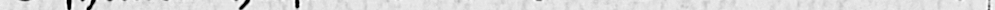Wuorituotteita:
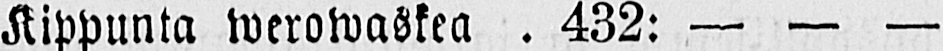Kippunta werowaskea . 432: — — —
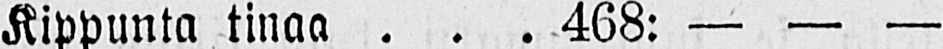Kippunta tinaa 468: — — —
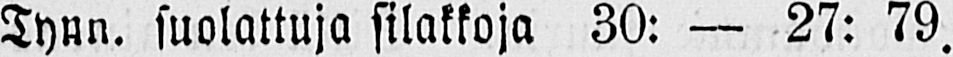Tynn. suolattuja silakkoja 30: — 27: 79.
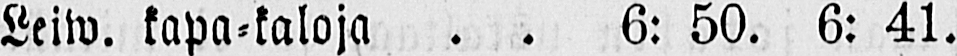Leiw. kapa-kaloja 6: 50. 6: 41.
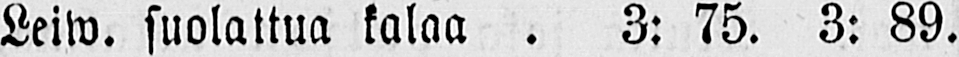Leiw. suolattua kalaa 3: 75. 3: 89.
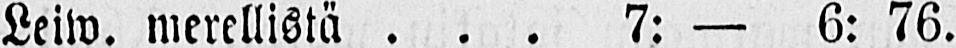Leiw. merellistä 7: — 6: 76.
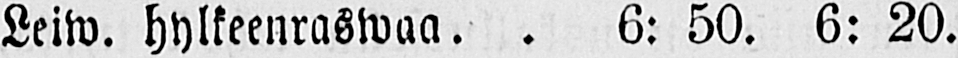Leiw. hylkeenraswaa 6: 50. 6: 20.
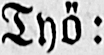Työ:
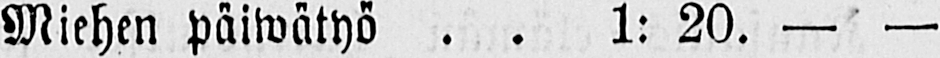Miehen päiwätyö 1: 20. — —
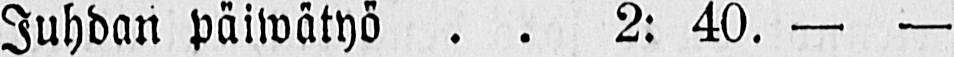Juhdan päiwätyö 2: 40. — —
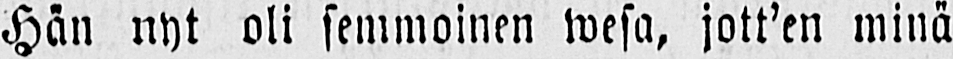Hän nyt oli semmoinen wesa, jott'en minä
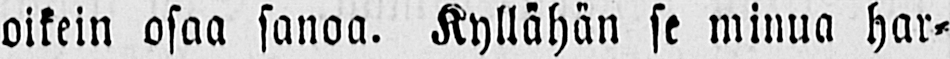oikein osaa sanoa. Kyllähän se minua har-
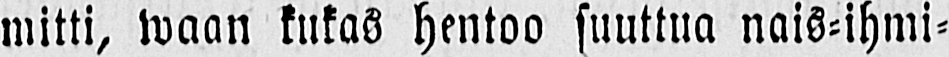mitti, waan kukas hentoo suuttua nais-ihmi-
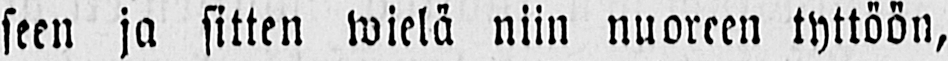seen ja sitten wielä niin nuoreen tyttöön,
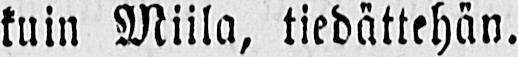kuin Miila, tiedättehän.
